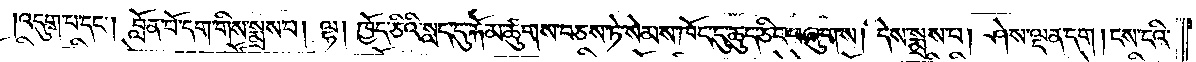འདུག་པ་དང༌། བློན་པོ་དག་གིས་སྨྲས་པ། ལྷ། ཁྱོད་ཅིའི་སླད་དུ་རྐོམ་ཚུགས་བཅས་ཏེ་སེམས་ཁོང་དུ་ཆུད་ཅིང་བཞུགས། དེས་སྨྲས་པ། ཤེས་ལྡན་དག ། ངས་ངའི་
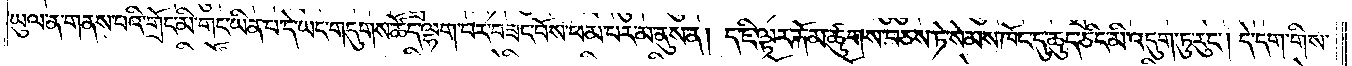ཡུལ་ན་གནས་པའི་གྲོང་མི་གང་ཡིན་པ་དེ་ཡང་གདུགས་ཚོད་ལྷག་པར་བཟང་པོས་ཕམ་པར་མ་ནུས་ན། ད་ཇི་ལྟར་རྐོམ་ཚུགས་བཅས་ཏེ་སེམས་ཁོང་དུ་ཆུད་ཅིང་མི་འདུག་ཏུ་རུང༌། དེ་དག་གིས་
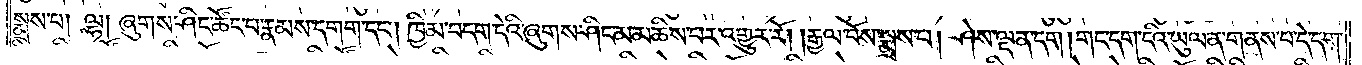སྨྲས་པ། ལྷ། ཞུགས་ཤིང་ཚོང་པ་རྣམས་དགག་དང༌། ཁྱིམ་བདག་དེའི་ཞུགས་ཤིང་མ་མཆིས་པར་འགྱུར་རོ། །རྒྱལ་པོས་སྨྲས་པ། ཤེས་ལྡན་དག །གང་དག་ངའི་ཡུལ་ན་གནས་པ་དེ་དག་
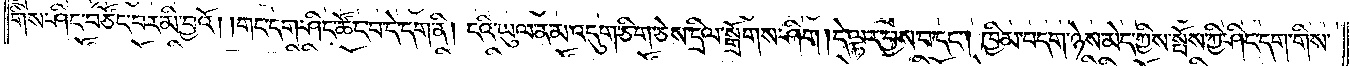གིས་ཤིང་བཙོང་བར་མི་བྱའོ། །གང་དག་ཤིང་ཚོང་བ་དེ་དག་ནི། ངའི་ཡུལ་ན་མ་འདུག་ཅིག་ཅེས་དྲིལ་སྒྲོགས་ཤིག །དེ་ལྟར་བྱས་པ་དང༌། ཁྱིམ་བདག་ཉེས་མེད་ཀྱིས་སྤོས་ཀྱི་ཤིང་དག་གིས་
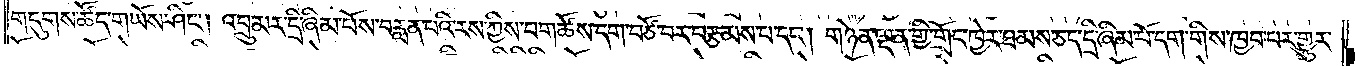གདུགས་ཚོད་གཡོས་ཤིང༌། འབྲུ་མར་དྲི་ཞིམ་པོས་བརླན་པའི་རས་ཀྱིས་བག་ཚོས་དག་བཙོ་བར་བརྩམས་པ་དང༌། གཉེན་ལྡན་གྱི་གྲོང་ཁྱེར་ཐམས་ཅད་དྲི་ཞིམ་པོ་དག་གིས་ཁྱབ་པར་གྱུར་
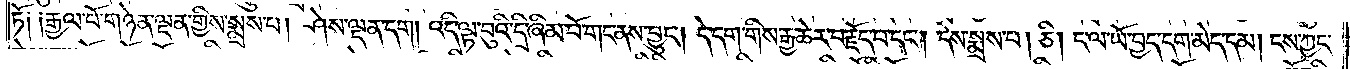ཏོ༑ ༑རྒྱལ་པོ་གཉེན་ལྡན་གྱིས་སྨྲས་པ། ཤེས་ལྡན་དག །འདི་ལྟ་བུའི་དྲི་ཞིམ་པོ་གང་ནས་བྱུང༌། དེ་དག་གིས་རྒྱ་ཆེར་བརྗོད་པ་དང༌། དེས་སྨྲས་པ། ཅི། ང་ལ་ཡོ་བྱད་དག་མེད་དམ། ངས་ཀྱང་
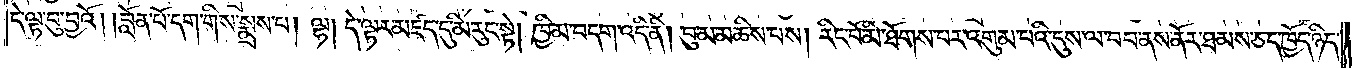དེ་ལྟ་བུ་བྱའོ། །བློན་པོ་དག་གིས་སྨྲས་པ། ལྷ། དེ་ལྟར་མཛད་དུ་མི་རུང་སྟེ། ཁྱིམ་བདག་འདི་ནི། བུ་མ་མཆིས་པས། རིང་པོ་མི་ཐོགས་པར་འགུམ་པའི་དུས་ལ་བབ་ནས་ནོར་ཐམས་ཅད་ཁྱོད་ཉིད་
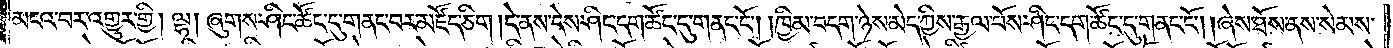མངའ་བར་འགྱུར་གྱི། ལྷ། ཞུགས་ཤིང་ཚོང་དུ་གནང་བར་མཛོད་ཅིག །དེ་ནས་དེས་ཤིང་དག་ཚོང་དུ་གནང་ངོ༌། །ཁྱིམ་བདག་ཉེས་མེད་ཀྱིས་རྒྱལ་པོས་ཤིང་དག་ཚོང་དུ་གནང་ངོ༌། །ཞེས་ཐོས་ནས་སེམས་
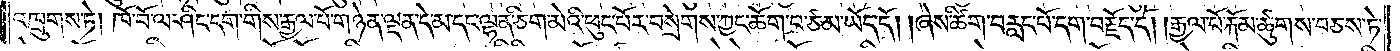འཁྲུགས་ཏེ། ཁོ་བོ་ལ་ཤིང་དག་གིས་རྒྱལ་པོ་གཉེན་ལྡན་དེ་མ་དང་ལྷན་ཅིག་མེའི་ཕུང་པོར་བསྲེགས་ཀྱང་ཆོག་བ་ཙམ་ཡོད་དོ། །ཞེས་ཚིག་བརླང་པོ་དག་བརྗོད་དོ། །རྒྱལ་པོ་རྐོམ་ཚུགས་བཅས་ཏེ་
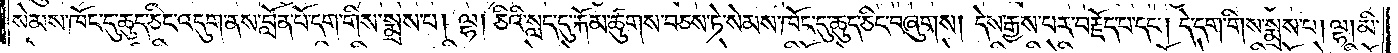སེམས་ཁོང་དུ་ཆུད་ཅིང་འདུག་ནས་བློན་པོ་དག་གིས་སྨྲས་པ། ལྷ། ཅིའི་སླད་དུ་རྐོམ་ཚུགས་བཅས་ཏེ་སེམས་ཁོང་དུ་ཆུད་ཅིང་བཞུགས། དེས་རྒྱས་པར་བརྗོད་པ་དང༌། དེ་དག་གིས་སྨྲས་པ། ལྷ། མི་
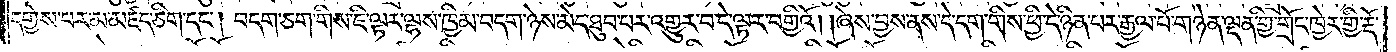དགྱེས་པར་མ་མཛད་ཅིག་དང༌། བདག་ཅག་གིས་ཇི་ལྟར་ལྷས་ཁྱིམ་བདག་ཉེས་མེད་ཐུབ་པར་འགྱུར་བ་དེ་ལྟར་བགྱིའོ། །ཞེས་བྱས་ནས་དེ་དག་གིས་ཕྱི་དེ་ཉིན་པར་རྒྱལ་པོ་གཉེན་ལྡན་གྱི་གྲོང་ཁྱེར་གྱི་རྡོ་
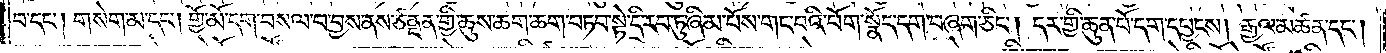བ་དང༌། གསེག་མ་དང༌། གྱོ་མོ་དག་བསལ་བ་བྱས་ནས་ཙནྡན་གྱི་ཆུས་ཆག་ཆག་བཏབ་སྟེ་དྲི་རབ་ཏུ་ཞིམ་པོས་གང་བའི་པོག་སྣོད་དག་བཞག་ཅིང༌། དར་གྱི་ཆུན་པོ་དག་དཔྱངས། རྒྱལ་མཚན་དང༌།
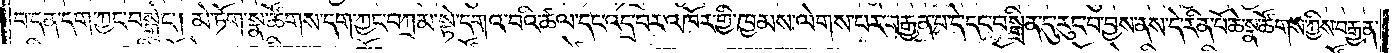བ་དན་དག་ཀྱང་བསྒྲེང༌། མེ་ཏོག་སྣ་ཚོགས་དག་ཀྱང་བཀྲམ་སྟེ་དགའ་བའི་ཚལ་དང་འདྲ་བར་འཁོར་གྱི་ཁྱམས་ལེགས་པར་བརྒྱན་པ་དེ་དང་བསྒྲིན་དུ་རུང་བ་བྱས་ནས་དེ་རིན་པོ་ཆེ་སྣ་ཚོགས་ཀྱིས་བརྒྱན་
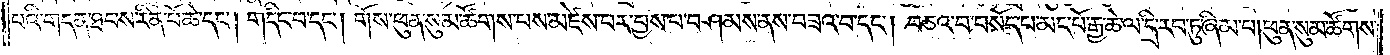པའི་གདན་ཐབས་རིན་པོ་ཆེ་དང༌། གདིང་བ་དང༌། གོས་ཕུན་སུམ་ཚོགས་པས་མཛེས་པར་བྱས་པ་བཤམས་ནས་བཟའ་བ་དང༌། བཅའ་བ་བསོད་པ་མང་པོ་རྒྱ་ཆེ་ལ་དྲི་རབ་ཏུ་ཞིམ་པ། ཕུན་སུམ་ཚོགས་
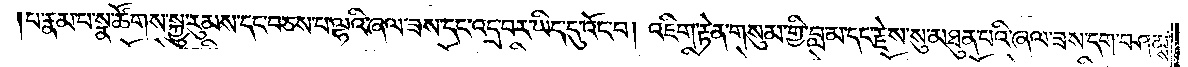པ་རྣམ་པ་སྣ་ཚོགས་སྐྱུ་རུམས་དང་བཅས་པ་ལྷའི་ཞལ་ཟས་དང་འདྲ་བར་ཡིད་དུ་འོང་བ། འཇིག་རྟེན་གསུམ་གྱི་བླ་མ་དང་རྗེས་སུ་མཐུན་པའི་ཞལ་ཟས་དག་བཤམས་
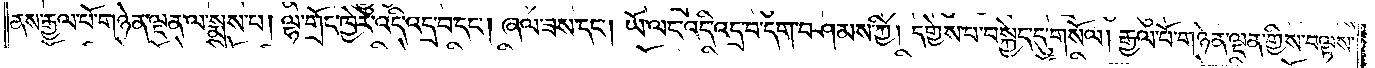ནས་རྒྱལ་པོ་གཉེན་ལྡན་ལ་སྨྲས་པ། ལྷ་གྲོང་ཁྱེར་འདི་འདྲ་བ་དང༌། ཞལ་ཟས་དང༌། ཡོ་ལང་འདི་འདྲ་བ་དག་བཤམས་ཀྱི། དགྱེས་པ་བསྐྱེད་དུ་གསོལ། རྒྱལ་པོ་གཉེན་ལྡན་གྱིས་བལྟས་
